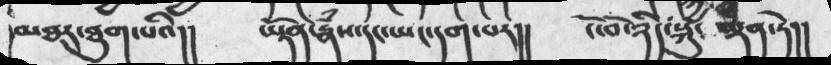།མཐར་ཐུག་པའི།།    ཡྟོན་རྣཾས་དང་ཡང་དག་པར།།   ངོ་བོ་ཉིད་སྐུ་འདྲན་ཏེ།།
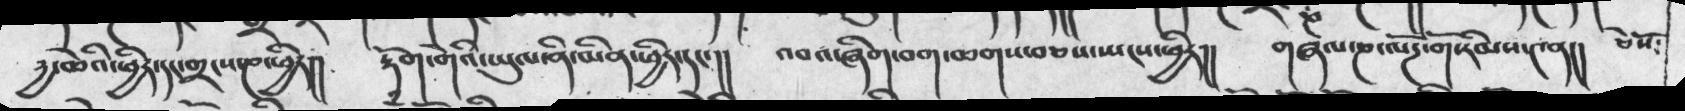རྱ་ཆེའི་ཕྱིར་དདང་གྲངས་ཎ་ཕྱིར།།   རྟོག་གེའི་ཡུལ་ནི་མིན་ཕྱིར་དང་།།   འབའ་ཞིག་བག་ཆགས་བཅས་སྤངས་ཕྱིར།།  གཞལ་ཎ་ལོཌ་གོ་རིམས་༤ན།།  ཅེསོ༴
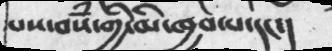པས་བསཾ་གྱི་མི་ཁྱབ་པ་དང་།
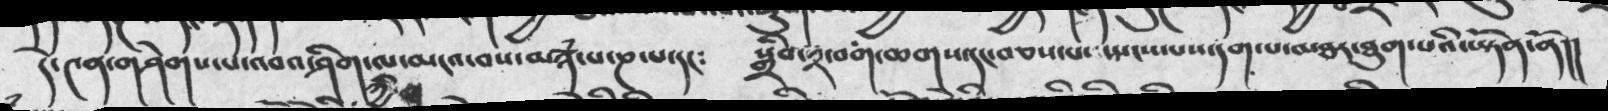དེ་༤ན་གཤེགས་པ་འབའ་ཤིག་ལ་མངའ་བས་མཉཾ་པ་ཎ་པ་དང༴   སྒྲིབ་༢་བག་ཆགས་དང་བཅས་པ་སྤངས་པས་དག་པ་མཐར་ཐུག་པའི་ཡྟོན་ནོ།།
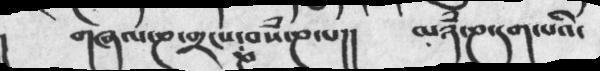གཞལ་ཎ་གྲངས་ཎ་བསཾ་ཎ་པ།།   མཉཾ་ཎ་དག་པའི་
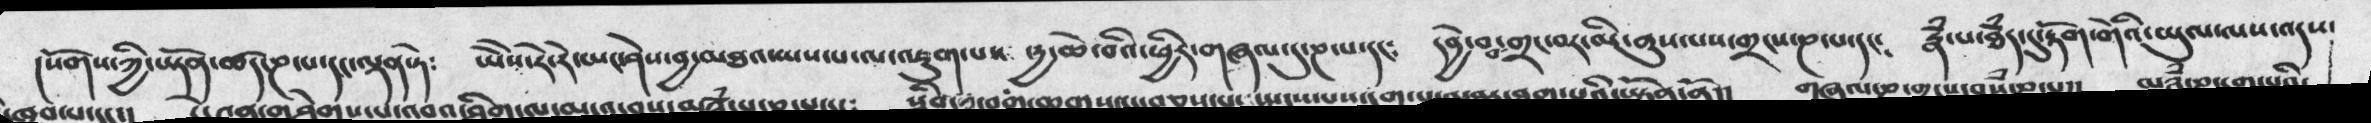སོགས་ཀྱི་ཡྟོན་ཚད་ཎ་པ་དང་ལྡན་ཏེ༴   ཡེེས་རེ་རེ་ཡང་ཤེས་བྱ་མཐའ་ཡས་པ་ལ་འཇུག་པས་   རྱ་ཆེ་བའི་ཕྱིར་གཞན་དུ་ཎ་པ་དང༴   རྣཾ་པ་ཐཾད་དུ་རྟོག་གེའི་ཡུལ་ལས་འདས་
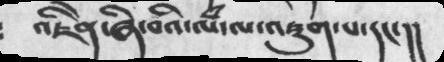འཇིེན་ཞི་བའི་ལཾ་ལ་འཇུག་པ་དང་།།
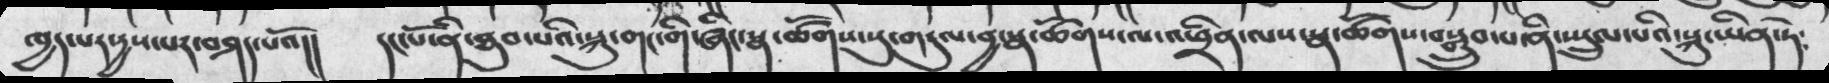ཁྱད་པར་དྱས་པར་བཤད་པའོ།།  དང་པོ་ནི་ཐུབ་པའི་སྐུ་གང་གི་ཞིང་སྣ་ཚོགས་སུ་གདུལ་བྱ་སྣ་ཚོགས་ལ་འཕྲིན་ལས་སྣ་ཚོགས་བསྒྲུབ་པ་ནི་སྤྲུལ་པའི་སྐུ་ཡིན་ཏེ༴
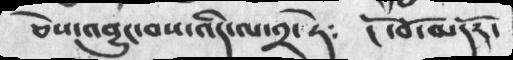ཅེས་འབྱུང་བས་འདི་ལ་༢་ཏེ༴  ངོ་བོ་མདོར་
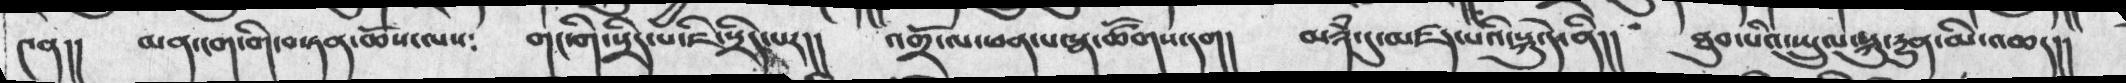༤ན།།. མན་ངག་གི་བསྟན་ཆོས་ལས༴   གང་གི་སྲིད་པ་ཇི་སྲིད་པར།།  འགྲོ་ལ་ཕན་པ་སྣ་ཚོགས་དག།  མཉཾ་དུ་མཛད་པའི་སྐུ་དེ་ནི།།  ཐཱུབ་པའི་སྤྲུལ་སྐུ་དྱུན་མི་འཆད།།
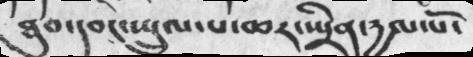ཐུབ་དབང་སྤྲུལ་པ་ཆར་སྤྲིན་དྱལ་པོ་
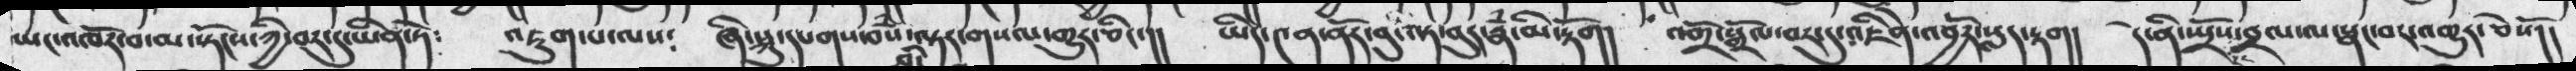ཡང་འཁོར་བ་སྟོངས་ཀྱི་བར་དུ་ཡིན་ཏེ༴ འཇུག་པ་ལས༴  ཞི་སྐུ་དཔགས་བསཾ་འདི་ལྟར་གསལ་གྱུར་ཅིང་།།  ཡིད་༤ན་ནོར་བུ་ལྟ་བུར་རྣཾ་མི་རྟོག།  འགྲོ་སྒྲོལ་བར་དུ་འཇིེན་འབྱོར་སླད་རྟག།  དེ་ནི་སྤྲོས་བྲལ་ལ་སྣང་བར་འགྱུར་ཅེསོ།།
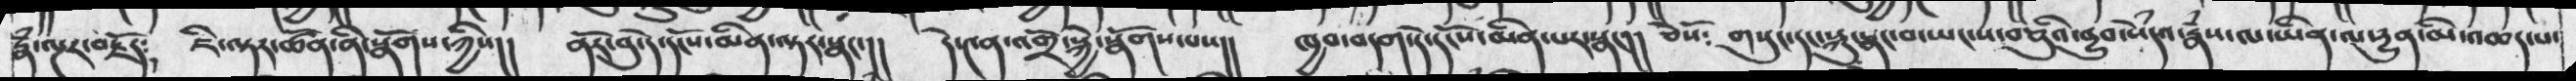རྣཾ་ལྔར་བརྗོད༴   ཇི་ལྟར་ཚོན་ནི་སྣོགས་ཀྱིས།།   ནོར་བུ་དེ་དངོས་མིན་ལྟར་སྣང་།།   དེ་༤ན་འགྲོ་སྐྱེ་སྣོགས་པས།།  ཁྱབ་བདག་དེ་དང་པོ་མིན་པར་སྣང་།།  ཅེསོ༴  གསུང་དང་སྐུ་སྣང་བ་ཡང་ས་བཅུའི་བྱུབ་སེཾདའ་རྣཾས་ལ་ཡི་ལ་དྱུན་མི་འཆད་པ་
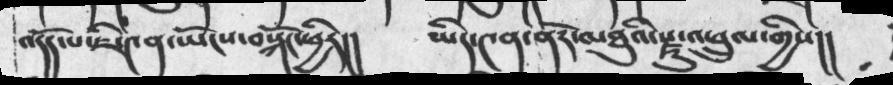འདོད་པ་ཇི་༤ན་ཡོངས་བསྐོང་ཕྱིར།།   ཡིད་༤ན་ནོར་མཐུའི་རྫུ་འཕྲུལ་གྱིས།།
